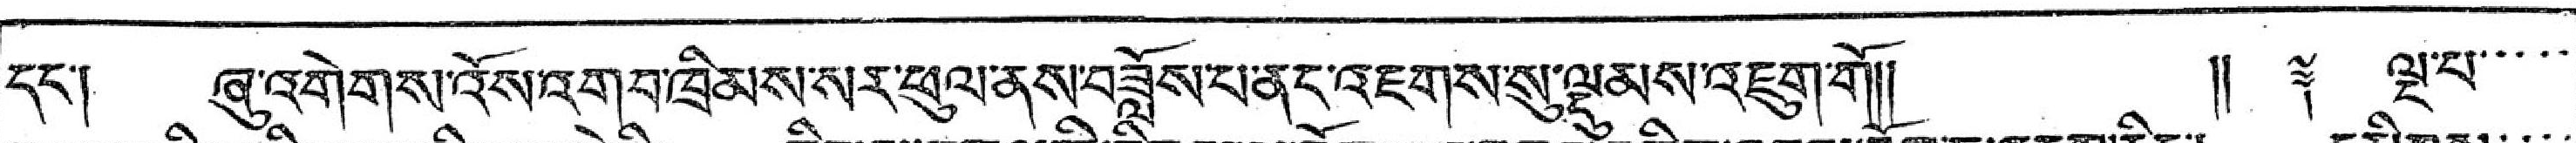དང་། ཞུ་འགེགས་འོས་འགབ་ཁྲིམས་སར་ཕུལ་ནས་བཟློས་པ་ནང་འཇགས་སུ་ལྡུམས་འཇུག་གོ།།  །། ༈ ལྔ་པ་་་་་
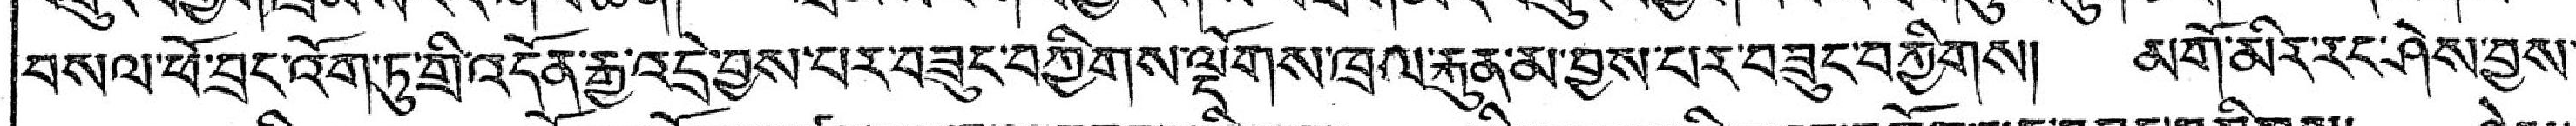བསལ་ཕོ་བྲང་འོག་ཏུ་གྲི་འདོན་རྒྱ་འདྲེ་བྱས་པར་བཟུང་བཀྱིགས་ལྡོགས་ཁྲལ་རྐུན་མ་བྱས་པར་བཟུང་བཀྱིགས། མགོ་མིར་རང་ཤེས་བྱས་
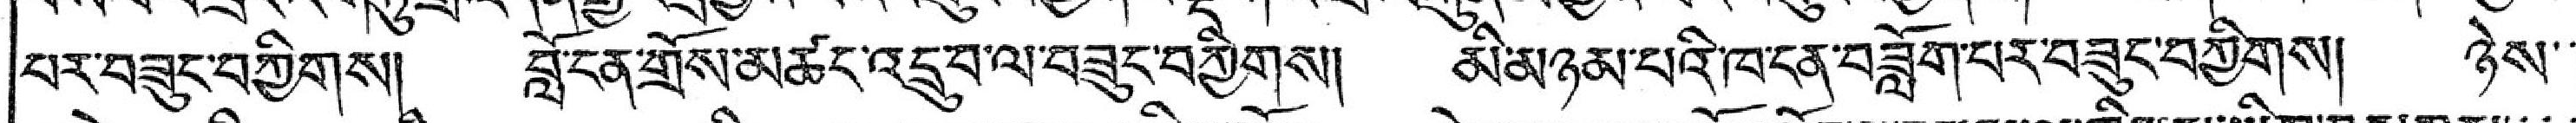པར་བཟུང་བཀྱིགས། བློ་ངན་གྲོས་མཚང་འདྲུ་བ་ལ་བཟུང་བཀྱིགས། མི་མཉམ་པའི་ཁ་ངན་བཟློག་པར་བཟུང་བཀྱིགས། ཉེས་་
